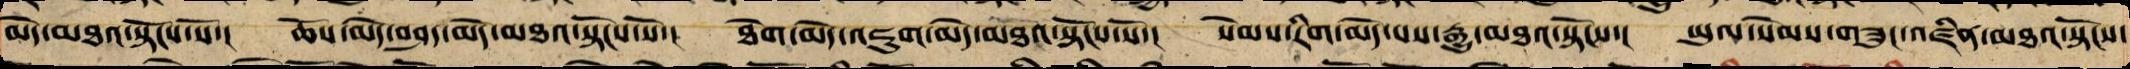མེད་མཐའ་སྟོངས་སོ་། ཆོས་མེད་བཤད་མེད་མཐའ་སྟོངས་སོ་། ཐེག་མེད་འཇུག་མེད་གྲུབ་པའི་མཐའ་སྟོངས་སོ་། སེམས་རིག་མེད་པས་རྒྱུ་མཐའ་སྟོངས་། ཡུལ་སེམས་གཟུང་འཛིན་མཐའ་སྟོངས་
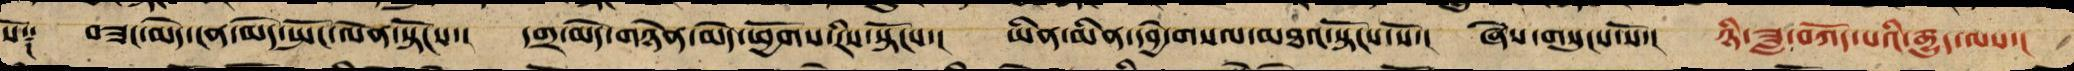སོ༑ བཟང་མེད་ངན་མེད་སྤང་ལེན་སྟོངས་། དགྲ་མེད་གཉེན་མེད་ཕྱོགས་རིས་སྟོངས་། ཡིན་མིན་དབྱེ་བསལ་མཐའ་སྟོངས་སོ་། ཞེས་གསུངས་སོ་། ཉི་ཟླ་བཀོད་པའི་རྒྱུད་ལས་།
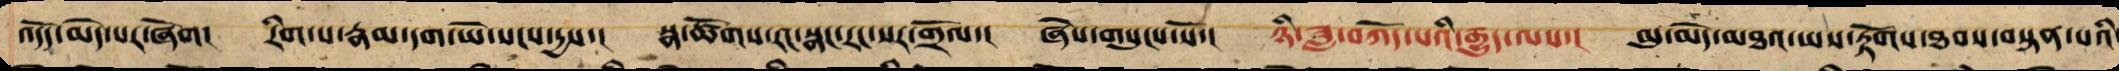འདོད་མེད་པར་ཞོག། རིག་པ་རྣམ་དག་ཡེ་སངས་དྱས་། སྣ་ཚོགས་རང་སྣང་རང་སར་གྲོལ་། ཞེས་གསུངས་སོ་། ཉི་ཟླ་བཀོད་པའི་རྒྱུད་ལས་། མུ་མེད་མཐའ་ཡས་རྟོགས་ཐབས་བསྟན་པའི་
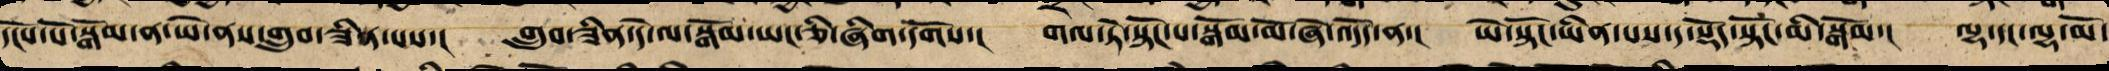དངོས་པོ་སྒོམ་ན་ཡེ་ནས་གྲུབ་ཟིན་པས་། གྲུབ་ཟིན་དེ་ལ་སྒོམ་ཡང་ཅི་ཞིག་དགོས་། གལ་ཏེ་སྟོང་པ་སྒོམ་མོ་ཞེ་འདོད་ན་། ཡེ་སྟོང་ཡིན་པས་ད་སྡོད་སྟོང་མི་སྒོམ་། ལྷ་དང་ལྷ་མོ་
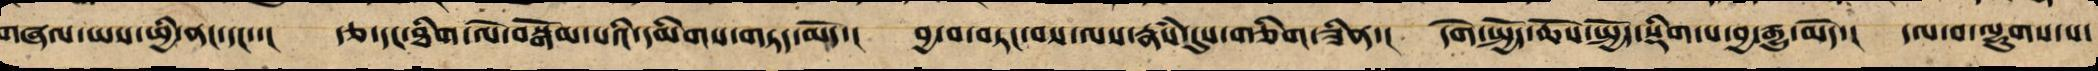གཞལ་ཡས་ཕྱི་ནང་དང་་། རྩ་དང་ཐིག་ལེ་བསྒོམ་པའི་དམིགས་གཏད་མོད་། བྱ་བ་བཏང་བས་ལས་རྣམས་དུས་གཅིག་ཟིན་། དགེ་སྤྱོད་ཆོས་སྤྱོད་སྡིག་པ་བྱ་རྒྱུ་མེད་། དལ་བ་ལྷུགས་པ་
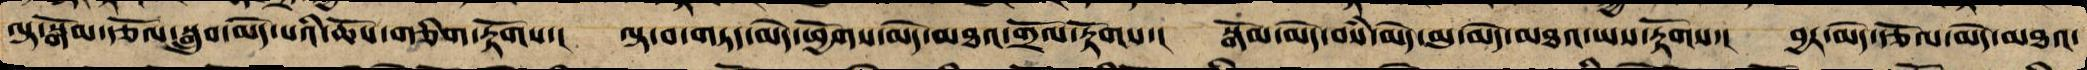ལྟ་སྒོམ་རྩོལ་བསྒྲུབ་མེད་པའི་ཆོས་གཅིག་རྟོགས་། ལྟ་བ་གཏད་མེད་ཕྱོགས་མེད་མཐའ་གྲོལ་རྟོགས་། སྒོམ་མེད་བསཾ་མེད་མུ་མེད་མཐའ་ཡས་རྟོགས་། བྱར་མེད་རྩོལ་མེད་མཐའ་
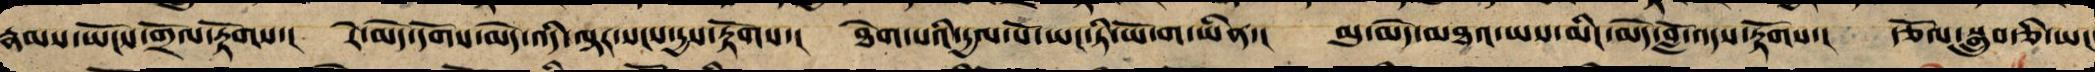རྣམས་ཡོངས་གྲོལ་རྟོགས་། རེ་མེད་དོགས་མེད་འདི་ལྟར་སངས་དྱས་རྟོགས་། ཐེག་པའི་དྱལ་པོ་ཡང་ཏི་ཡོ་ག་ཡིན་། མུ་མེད་མཐའ་ཡས་མིང་མེད་བློ་འདས་རྟོགས་། རྩོལ་སྒྲུབ་ཅི་ཡང
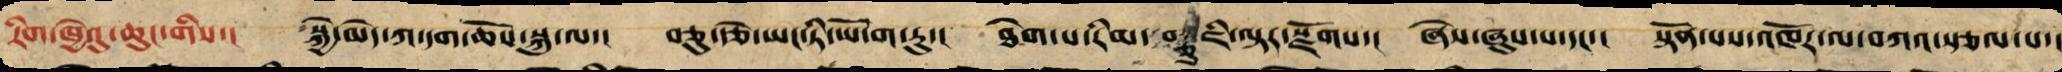རིག་ཁྱེའུ་ཆུང་གིས་། སྐྱེ་མེད་ཀ་དག་ཆོས་སྐུ་ལ་། བཅུ་རྩེ་ཡང་ཏི་ཡོ་ག་རུ་། ཐེག་པ་རིམ་བཅུ་ཇི་ལྟར་སྫོགས་། ཞེས་ཞུས་པ་དང་། སྟོན་པས་འཁོར་ལ་བཀའ་སྩལ་པ་།
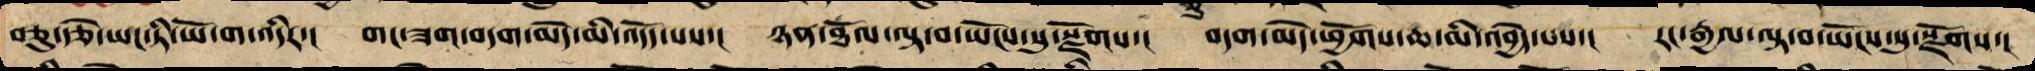བཅུ་རྩེ་ཡང་ཏི་ཡོ་ག་འདིར་། གང་ཟག་བདག་མེད་མི་འདོད་པས་། ཉན་ཐོལ་ལྟ་བ་ཡོངས་སུ་སྫོགས་། བདག་མེད་ཕྱོགས་ཆ་མི་འབྱེད་པས་། རང་རྒྱལ་ལྟ་བ་ཡོངས་སུ་སྫོགས་།
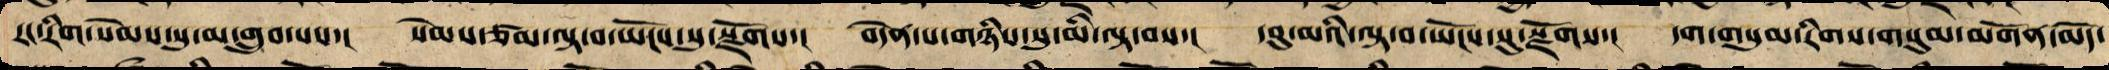རང་རིག་སེམས་སུ་མ་གྲུབ་པས་། སེམས་ཙམ་ལྟ་བ་ཡོངས་སུ་སྫོགས་། བདེན་པ་གཉིས་སུ་མི་བལྟ་བས་། དབུ་མའི་ལྟ་བ་ཡོངས་སུ་སྫོགས་། དག་གསུམ་རིགས་གསུམ་མགོན་མེད་
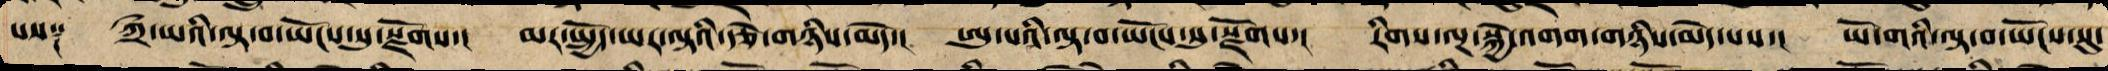པས༑ ཀྲྀ་ཡའི་ལྟ་བ་ཡོངས་སུ་སྫོགས་། མར་སྤྱོད་ཡར་ལྟའི་རྩེ་གཉིས་མེད་། ཨུ་བའི་ལྟ་བ་ཡོངས་སུ་སྫོགས་། རིགས་ལྔ་སྐྱེ་འགག་གཉིས་མེད་པས་། ཡོ་གའི་ལྟ་བ་ཡོངས་སུ་
